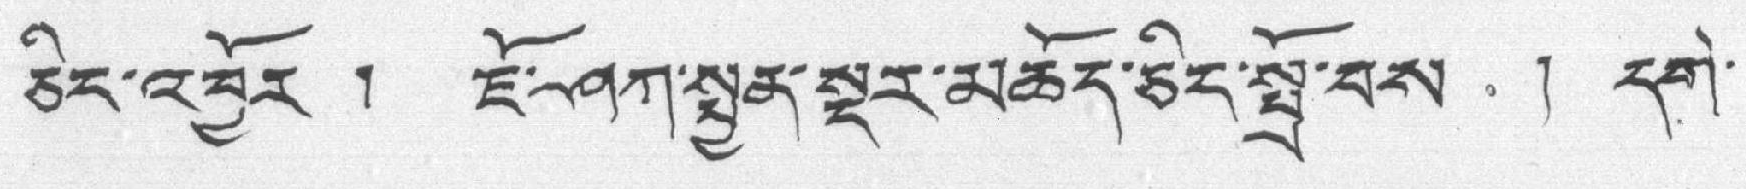ཅིང་འབྱོར ། ཇོ་ཤཀ་སྤྱན་སྔར་མཆོད་ཅིང་སྤྲོ་བས ། དགེ་
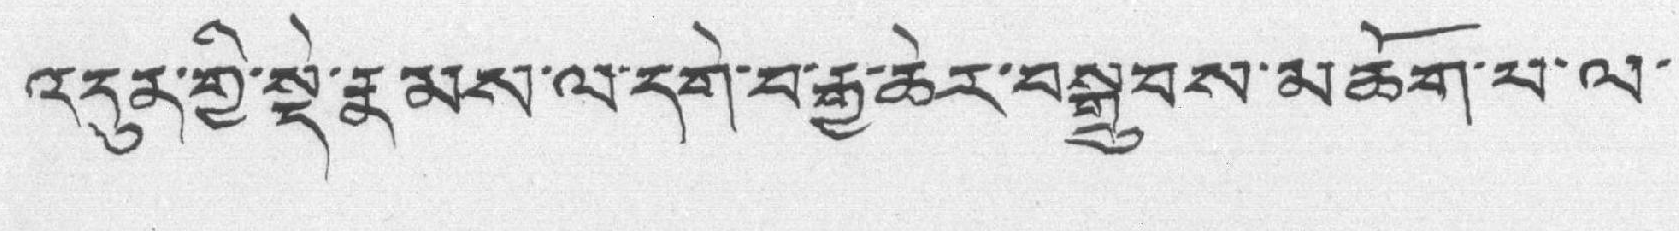འདུན་གྱི་སྡེ་རྣམས་ལ་དགེ་བ་རྒྱ་ཆེར་བསྒྲུབས་མཆོག་པ་ལ་
